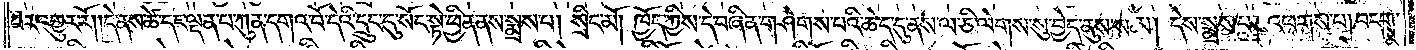པར་འགྱུར་རོ། །དེ་ནས་ཚེ་དང་ལྡན་པ་ཀུན་དགའ་བོ་དེའི་དྲུང་དུ་སོང་སྟེ་ཕྱིན་ནས་སྨྲས་པ། སྲིང་མོ། ཁྱོད་ཀྱིས་དེ་བཞིན་གཤེགས་པའི་ཆེད་དུ་ནས་ལ་ཅི་ལེགས་སུ་བྱེད་ནུས་སམ། དེས་སྨྲས་པ། འཕགས་པ། བདག་
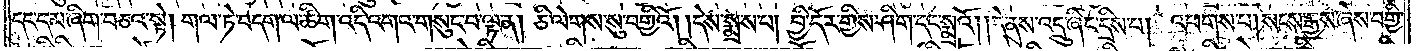དང་དམ་ཞིག་བཅའ་སྟེ། གལ་ཏེ་བདག་ལ་ཚིག་འདི་འགའ་གསུང་བ་ལྟ་ན། ཅི་ལེགས་སུ་བགྱིའོ། །དེས་སྨྲས་པ། བྱི་དོར་གྱིས་ཤིག་དང་སྨྲའོ། །དེ་ནས་འདྲུ་ཞིང་དྲིས་པ། འཕགས་པ། སངས་རྒྱས་ཞེས་བགྱི་
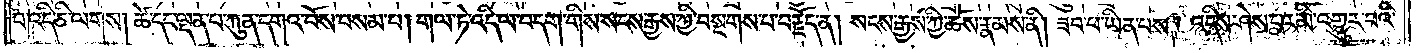བ་འདི་ཅི་ལགས། ཚེ་དང་ལྡན་པ་ཀུན་དགའ་བོས་བསམ་པ། གལ་ཏེ་འདི་ལ་བདག་གིས་སངས་རྒྱས་ཀྱི་བསྔགས་པ་བརྗོད་ན། སངས་རྒྱས་ཀྱི་ཆོས་རྣམས་ནི། ཟབ་པ་ཡིན་པས། འདིས་ཤེས་པར་མི་འགྱུར་བའི་
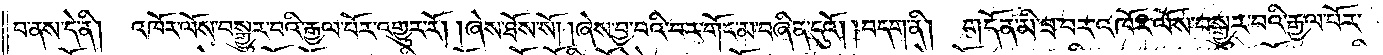བ་ནས་དེ་ནི། འཁོར་ལོས་བསྒྱུར་བའི་རྒྱལ་པོར་འགྱུར་རོ། །ཞེས་ཐོས་སོ། །ཞེས་བྱ་བའི་བར་གོང་མ་བཞིན་དུའོ། །བདག་ནི། གདོན་མི་ཟ་བར་འཁོར་ལོས་བསྒྱུར་བའི་རྒྱལ་པོར་
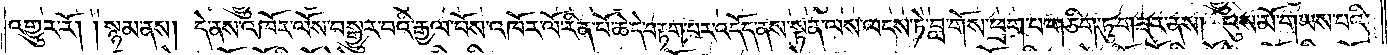འགྱུར་རོ། །སྙམ་ནས། དེ་ནས་འཁོར་ལོས་བསྒྱུར་བའི་རྒྱལ་པོས་འཁོར་ལོ་རིན་པོ་ཆེ་དེ་བརྟག་པར་འདོད་ནས་སྟན་ལས་ལངས་ཏེ་བླ་གོས་ཕྲག་པ་གཅིག་ཏུ་གཟར་ནས། པུས་མོ་གཡས་པའི་
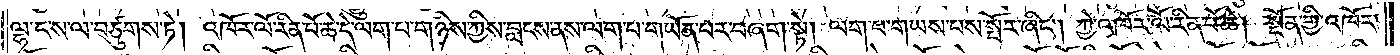ལྷ་ང་ས་ལ་བཙུགས་ཏེ། འཁོར་ལོ་རིན་པོ་ཆེ་དེ་ལག་པ་གཉིས་ཀྱིས་བླངས་ནས་ལག་པ་གཡོན་པར་བཞག་སྟེ། ལག་པ་གཡས་པས་སྤོར་ཞིང༌། ཀྱེ་འཁོར་ལོ་རིན་པོ་ཆེ། སྔོན་གྱི་འཁོར་
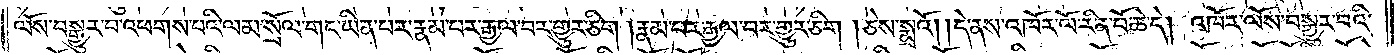ལོས་བསྒྱུར་བ་འཕགས་པའི་ལམ་སྲོལ་གང་ཡིན་པར་རྣམ་པར་རྒྱལ་བར་གྱུར་ཅིག །རྣམ་པར་རྒྱལ་བར་གྱུར་ཅིག །ཅེས་སྨྲའོ། །དེ་ནས་འཁོར་ལོ་རིན་པོ་ཆེ་དེ། འཁོར་ལོས་བསྒྱུར་བའི་
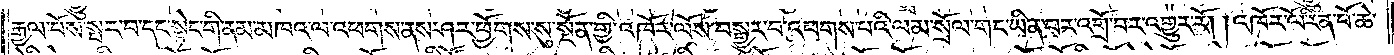རྒྱལ་པོས་སྤར་བ་དང་སྟེང་གི་ནམ་མཁའ་ལ་འཕགས་ནས་ཤར་ཕྱོགས་སུ་སྔོན་གྱི་འཁོར་ལོས་བསྒྱུར་ང་འཕགས་པའི་ལམ་སྲོལ་གང་ཡིན་པར་འགྲོ་བར་འགྱུར་རོ། །འཁོར་ལོ་རིན་པོ་ཆེ་
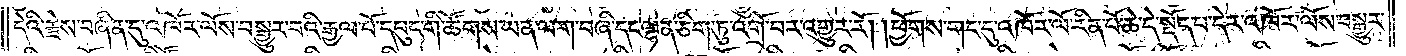དེའི་རྗེས་བཞིན་དུ་འཁོར་ལོས་བསྒྱུར་བའི་རྒྱལ་པོ་དཔུང་གི་ཚོགས་ཡན་ལག་བཞི་དང་ལྷན་ཅིག་ཏུ་འགྲོ་བར་འགྱུར་རོ། །ཕྱོགས་གང་དུ་འཁོར་ལོ་རིན་པོ་ཆེ་དེ་སྡོད་པ་དེར་འཁོར་ལོས་བསྒྱུར་
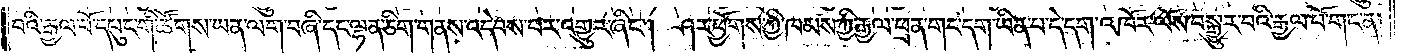བའི་རྒྱལ་པོ་དཔུང་གི་ཚོགས་ཡན་ལག་བཞི་དང་ལྷན་ཅིག་གནས་འདེབས་པར་འགྱུར་ཞིང༌། ཤར་ཕྱོགས་ཀྱི་ཁམས་ཀྱི་རྒྱལ་ཕྲན་གང་དག་ཡིན་པ་དེ་དག་འཁོར་ལོས་བསྒྱུར་བའི་རྒྱལ་པོ་གང་ན་
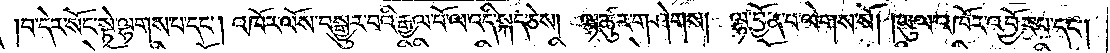བ་དེར་སོང་སྟེ་ལྷགས་པ་དང༌། འཁོར་ལོས་བསྒྱུར་བའི་རྒྱལ་པོ་ལ་འདི་སྐད་ཅེས། ལྷ་ཚུར་གཤེགས། ལྷ་བྱོན་པ་ལེགས་སོ། །ཡུལ་འཁོར་འབྱོར་པ་དང༌།
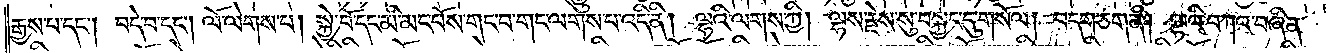རྒྱས་པ་དང༌། བདེ་བ་དང༌། ལོ་ལེགས་པ། སྐྱེ་བོ་དང་མི་མང་པོས་གང་བ་གང་ལགས་པ་འདི་ནི། ལྷའི་ལགས་ཀྱི། ལྷས་རྗེས་སུ་བསྐྱང་དུ་གསོལ། བདག་ཅག་ནི། ལྷའི་བཀའ་བཞིན་
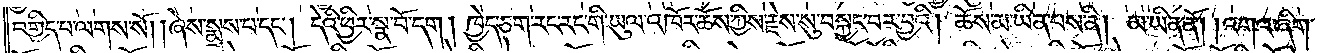བགྱིད་པ་ལགས་སོ། །ཞེས་སྨྲས་པ་དང༌། དེའི་ཕྱིར་སྣ་བོ་དག །ཁྱེད་ཅག་རང་རང་གི་ཡུལ་འཁོར་ཆོས་ཀྱིས་རྗེས་སུ་བསྐྱང་བར་བྱའི། ཆོས་མ་ཡིན་པས་ནི། མ་ཡིན་ནོ། །འགའ་ཞིག་
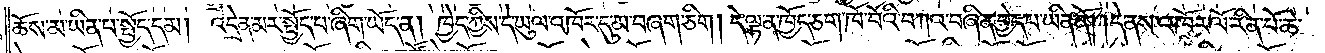ཆོས་མ་ཡིན་པ་སྤྱོད་དམ། འདྲེན་མར་སྤྱོད་པ་ཞིག་ཡོད་ན། ཁྱེད་ཀྱིས་དེ་ཡུལ་འཁོར་དུ་མ་བཞག་ཅིག །དེ་ལྟ་ན་ཁྱོད་ཅག་ཁོ་བོའི་བཀའ་བཞིན་བྱེད་པ་ཡིན་ནོ། །དེ་ནས་འཁོར་ལོ་རིན་པོ་ཆེ་
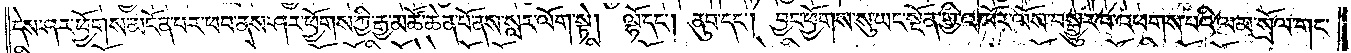དེས་ཤར་ཕྱོགས་མངོན་པར་ཕབ་ནས་ཤར་ཕྱོགས་ཀྱི་རྒྱ་མཚོ་ཆེན་པོ་ནས་སླར་ལོག་སྟེ། ལྷོ་དང༌། ནུབ་དང༌། བྱང་ཕྱོགས་སུ་ཡང་སྔོན་གྱི་འཁོར་ལོས་བསྒྱུར་བ་འཕགས་པའི་ལམ་སྲོལ་གང་
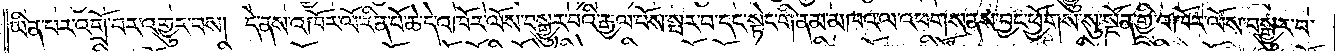ཡིན་པར་འགྲོ་བར་འགྱུར་པས། དེ་ནས་འཁོར་ལོ་རིན་པོ་ཆེ་དེ་འཁོར་ལོས་བསྒྱུར་བའི་རྒྱལ་པོས་སྦར་བ་དང་སྟེང་གི་ནམ་མཁའ་ལ་འཕགས་ནས་བྱང་ཕྱོགས་སུ་སྔོན་གྱི་འཁོར་ལོས་བསྒྱུར་བ་
